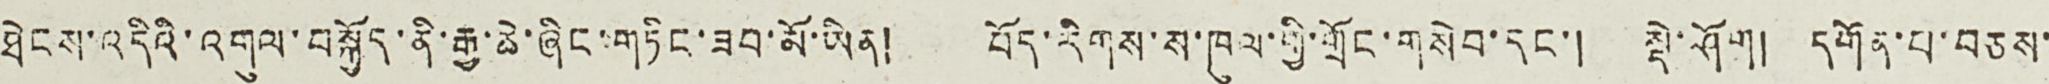ཐེངས་འདིའི་འགུལ་བསྐྱོད་ནི་རྒྱ་ཆེ་ཞིང་གཏིང་ཟབ་མོ་ཡིན། བོད་རིགས་ས་ཁུལ་གྱི་གྲོང་གསེབ་དང་། སྡེ་ཤོག། དགོན་པ་བཅས་
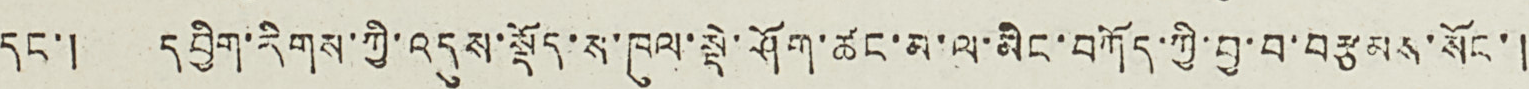དང་། དབྱིག་རིགས་ཀྱི་འདུས་སྡོད་ས་ཁུལ་སྡེ་ཤོག་ཚང་མ་ལ་མིང་བཀོད་ཀྱི་བྱ་བ་བརྩམས་སོང་།
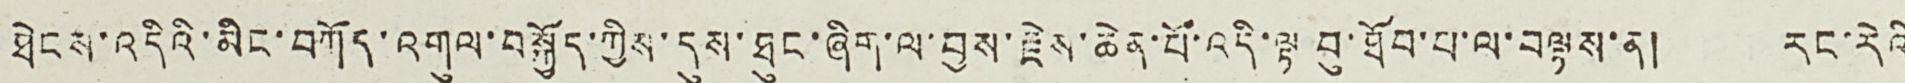ཐེངས་འདིའི་མིང་བཀོད་འགུལ་བསྐྱོད་ཀྱིས་དུས་ཐུང་ཞིག་ལ་བྱས་རྗེས་ཆེན་པོ་འདི་ལྟ་བུ་ཐོབ་པ་ལ་བལྟས་ན། རང་རེའི
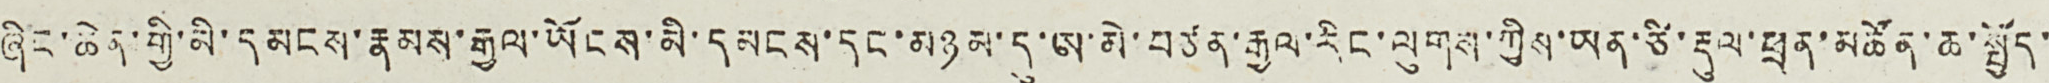ཞིང་ཆེན་གྱི་མི་དམངས་རྣམས་རྒྱལ་ཡོངས་མི་དམངས་དང་མཉམ་དུ་ཨ་མེ་བཙན་རྒྱལ་རིང་ལུགས་ཀྱིས་ཡན་ཙི་རྡུལ་ཕྲན་མཚོན་ཆ་སྤྱོད་
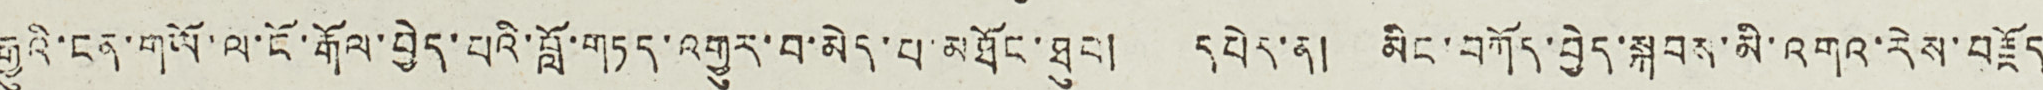རྒྱུའི་ངན་གཡོ་ལ་ངོ་རྒོལ་བྱེད་པའི་བློ་གཏད་འགྱུར་བ་མེད་པ་མཐོང་ཐུབ། དཔེར་ན། མིང་བཀོད་བྱེད་སྐབས་མི་འགའ་རེས་བརྗོད
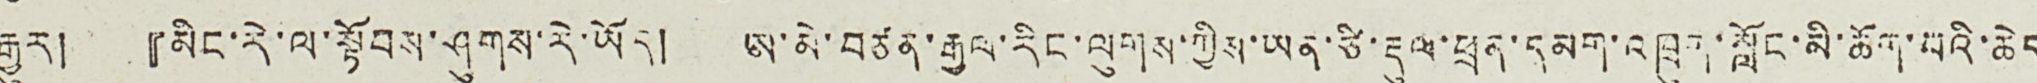རྒྱུར། 『མིང་རེ་ལ་སྟོབས་ཤུགས་རེ་ཡོད། ཨ་མེ་བཙན་རྒྱལ་རིང་ལུགས་ཀྱིས་ཡན་ཙི་རྡུལ་ཕྲན་དམག་འཁྲུག་སློང་མི་ཆོག་པའི་ཆེད
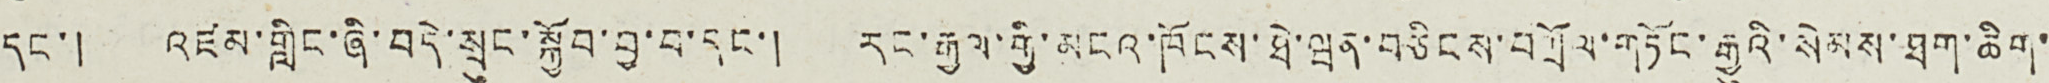དང་། འཛམ་གླིང་ཞི་བདེ་སྲུང་སྐྱོབ་བྱ་བ་དང་། རང་རྒྱལ་གྱི་མངའ་ཁོངས་ཐེ་ཝན་བཅིངས་བཀྲོལ་གཏོང་རྒྱུའི་སེམས་ཐག་ཆིག་
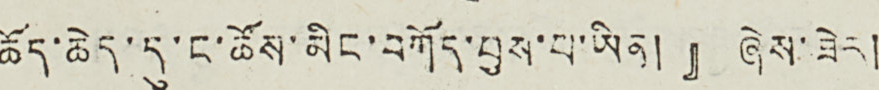ཆོད་ཆེན་དུ་ང་ཚོས་མིང་བཀོད་བྱས་པ་ཡིམ།』ཞེས་ཟེར།
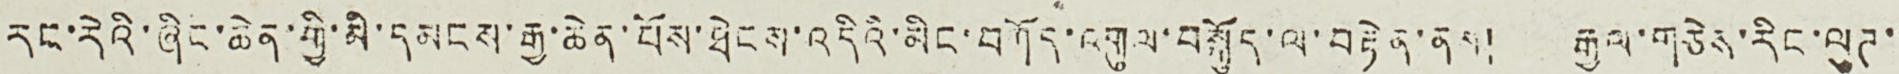རང་རེའི་ཞིང་ཆེན་གྱི་མི་དམངས་རྒྱ་ཆེན་པོས་ཐེངས་འདིའི་མིང་བཀོད་འགུལ་བསྐྱོད་ལ་བརྟེན་ནས། རྒྱལ་གཅེས་རིང་ལུཊ་་
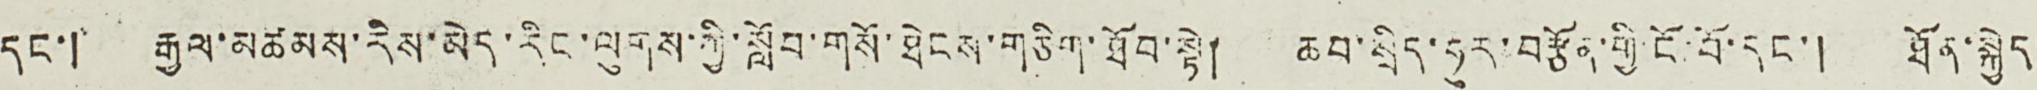དང་། རྒྱལ་མཚམས་རིས་མེད་རིང་ལུགས་ཀྱི་སློབ་གསོ་ཐེངས་གཅིག་ཐོབ་སྟེ། ཆབ་སྲིད་ཧུར་བརྩོན་གྱི་ངོ་བོ་དང་། ཐོན་སྐྱེད་
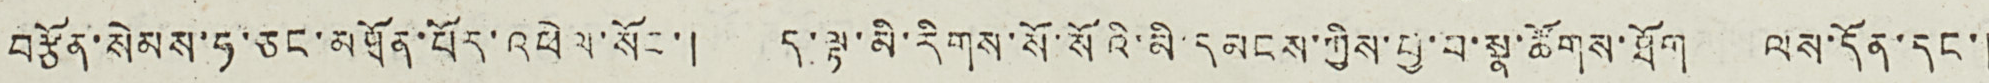བརྩོན་སེམས་ཧ་ཅང་མཐོན་པོར་འཕེལ་སོང་། ད་ལྟ་མི་རིགས་སོ་སོའི་མི་དམངས་ཀྱིས་བྱ་བ་སྣ་ཚོགས་ཐོག ལས་དོན་དང་།
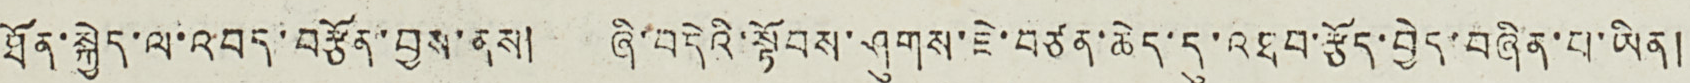ཐོན་སྐྱེད་ལ་འབད་བརྩོན་བྱས་ནས། ཞི་བདེའི་སྟོབས་ཤུགས་ཇེ་བཙན་ཆེད་དུ་འཐབ་རྩོད་བྱེད་བཞིན་པ་ཡིན།
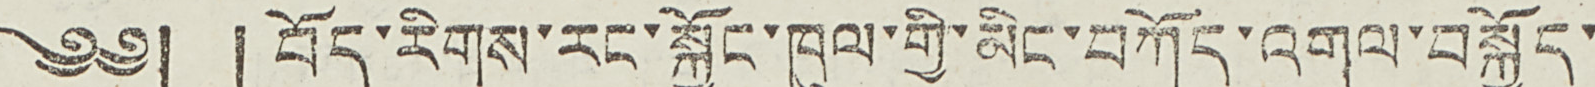༄༅། །བོད་རིགས་རང་སྐྱོང་ཁུལ་གྱི་མིང་བཀོད་འགུལ་བསྐྱོད་
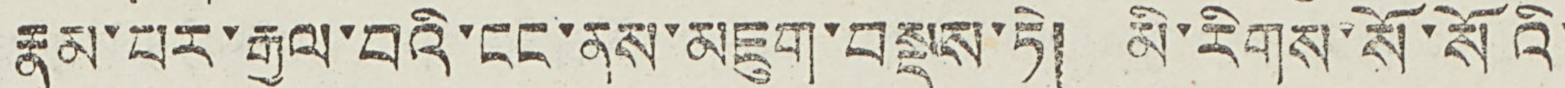རྣམ་པར་རྒྱལ་བའི་ངང་ནས་མཇུག་བསྡུས་ཏེ། མི་རིགས་སོ་སོའི་
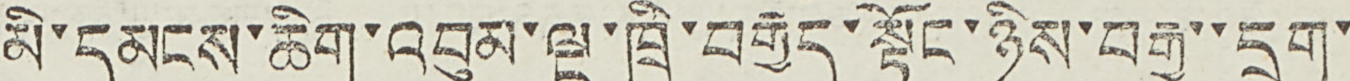མི་དམངས་ཆིག་འབུམ་ལྔ་ཁྲི་བརྒྱད་སྟོང་ཉིས་བརྒྱ་་དྲུག་
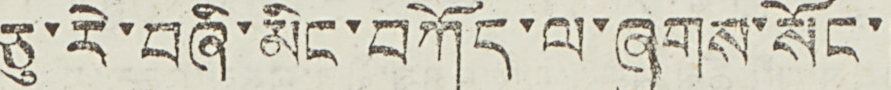ཅུ་རེ་བཞི་མིང་བཀོད་ལ་ཞུགས་སོང་།
